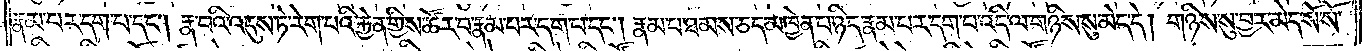རྣམ་པར་དག་པ་དང༌། རྣ་བའི་འདུས་ཏེ་རེག་པའི་རྐྱེན་གྱིས་ཚོར་བ་རྣམ་པར་དག་པ་དང༌། རྣམ་པ་ཐམས་ཅད་མཁྱེན་པ་ཉིད་རྣམ་པར་དག་པ་འདི་ལ་གཉིས་སུ་མེད་དེ། གཉིས་སུ་བྱར་མེད་སོ་སོ་
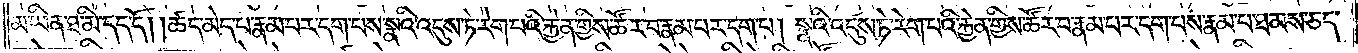མ་ཡིན་ཐ་མི་དད་དོ། །ཚད་མེད་པ་རྣམ་པར་དག་པས་སྣའི་འདུས་ཏེ་རེག་པའི་རྐྱེན་གྱིས་ཚོར་བ་རྣམ་པར་དག་པ། སྣའི་འདུས་ཏེ་རེག་པའི་རྐྱེན་གྱིས་ཚོར་བ་རྣམ་པར་དག་པས་རྣམ་པ་ཐམས་ཅད་
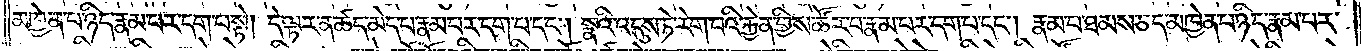མཁྱེན་པ་ཉིད་རྣམ་པར་དག་པ་སྟེ། དེ་ལྟར་ན་ཚད་མེད་པ་རྣམ་པར་དག་པ་དང༌། སྣའི་འདུས་ཏེ་རེག་པའི་རྐྱེན་གྱིས་ཚོར་བ་རྣམ་པར་དག་པ་དང༌། རྣམ་པ་ཐམས་ཅད་མཁྱེན་པ་ཉིད་རྣམ་པར་
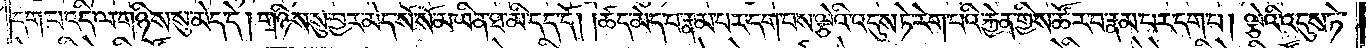དག་པ་འདི་ལ་གཉིས་སུ་མེད་དེ། གཉིས་སུ་བྱར་མེད་སོ་སོ་མ་ཡིན་ཐ་མི་དད་དོ། །ཚད་མེད་པ་རྣམ་པར་དག་པས་ལྕེའི་འདུས་ཏེ་རེག་པའི་རྐྱེན་གྱིས་ཚོར་བ་རྣམ་པར་དག་པ། ལྕེའི་འདུས་ཏེ་
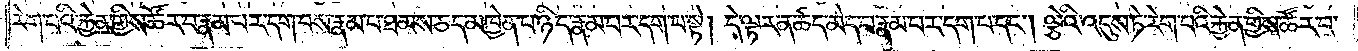རེག་པའི་རྐྱེན་གྱིས་ཚོར་བ་རྣམ་པར་དག་པས་རྣམ་པ་ཐམས་ཅད་མཁྱེན་པ་ཉིད་རྣམ་པར་དག་པ་སྟེ། དེ་ལྟར་ན་ཚད་མེད་པ་རྣམ་པར་དག་པ་དང༌། ལྕེའི་འདུས་ཏེ་རེག་པའི་རྐྱེན་གྱིས་ཚོར་བ་
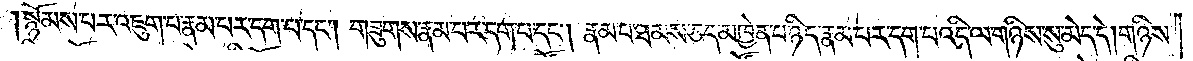སྙོམས་པར་འཇུག་པ་རྣམ་པར་དག་པ་དང༌། གཟུགས་རྣམ་པར་དག་པ་དང༌། རྣམ་པ་ཐམས་ཅད་མཁྱེན་པ་ཉིད་རྣམ་པར་དག་པ་འདི་ལ་གཉིས་སུ་མེད་དེ། གཉིས་
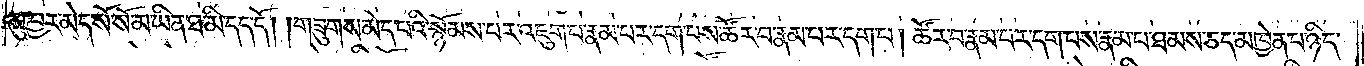སུ་བྱར་མེད་སོ་སོ་མ་ཡིན་ཐ་མི་དད་དོ། །གཟུགས་མེད་པའི་སྙོམས་པར་འཇུག་པ་རྣམ་པར་དག་པས་ཚོར་བ་རྣམ་པར་དག་པ། ཚོར་བ་རྣམ་པར་དག་པས་རྣམ་པ་ཐམས་ཅད་མཁྱེན་པ་ཉིད་
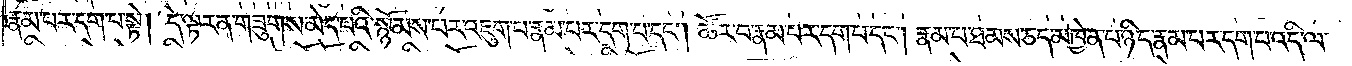རྣམ་པར་དག་པ་སྟེ། དེ་ལྟར་ན་གཟུགས་མེད་པའི་སྙོམས་པར་འཇུག་པ་རྣམ་པར་དག་པ་དང༌། ཚོར་བ་རྣམ་པར་དག་པ་དང༌། རྣམ་པ་ཐམས་ཅད་མཁྱེན་པ་ཉིད་རྣམ་པར་དག་པ་འདི་ལ་
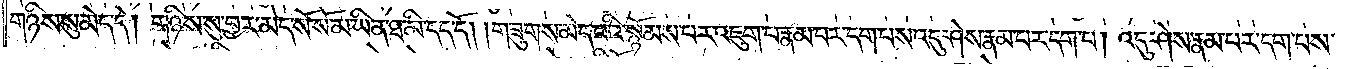གཉིས་སུ་མེད་དེ། གཉིས་སུ་བྱར་མེད་སོ་སོ་མ་ཡིན་ཐ་མི་དད་དོ། །གཟུགས་མེད་པའི་སྙོམས་པར་འཇུག་པ་རྣམ་པར་དག་པས་འདུ་ཤེས་རྣམ་པར་དག་པ། འདུ་ཤེས་རྣམ་པར་དག་པས་
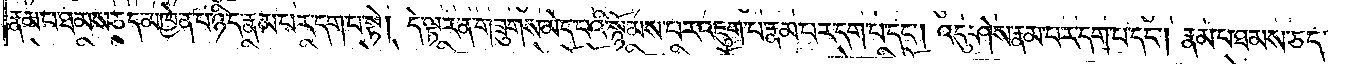རྣམ་པ་ཐམས་ཅད་མཁྱེན་པ་ཉིད་རྣམ་པར་དག་པ་སྟེ། དེ་ལྟར་ན་གཟུགས་མེད་པའི་སྙོམས་པར་འཇུག་པ་རྣམ་པར་དག་པ་དང༌། འདུ་ཤེས་རྣམ་པར་དག་པ་དང༌། རྣམ་པ་ཐམས་ཅད་
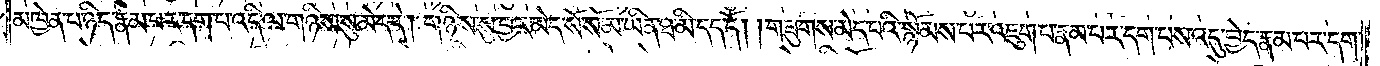མཁྱེན་པ་ཉིད་རྣམ་པར་དག་པ་འདི་ལ་གཉིས་སུ་མེད་དེ། གཉིས་སུ་བྱར་མེད་སོ་སོ་མ་ཡིན་ཐ་མི་དད་དོ། །གཟུགས་མེད་པའི་སྙོམས་པར་འཇུག་པ་རྣམ་པར་དག་པས་འདུ་བྱེད་རྣམ་པར་དག་
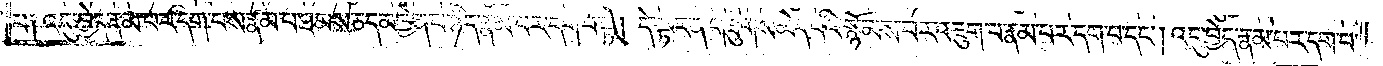པ༑ འདུ་བྱེད་རྣམ་པར་དག་པས་རྣམ་པ་ཐམས་ཅད་མཁྱེན་པ་ཉིད་རྣམ་པར་དག་པ་སྟེ། དེ་ལྟར་ན་གཟུགས་མེད་པའི་སྙོམས་པར་འཇུག་པ་རྣམ་པར་དག་པ་དང༌། འདུ་བྱེད་རྣམ་པར་དག་པ་
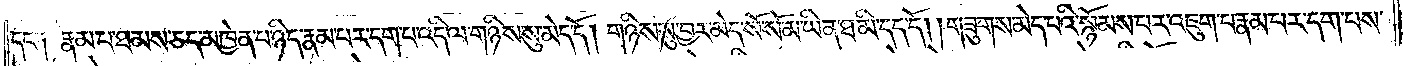དང་༑ རྣམ་པ་ཐམས་ཅད་མཁྱེན་པ་ཉིད་རྣམ་པར་དག་པ་འདི་ལ་གཉིས་སུ་མེད་དོ། གཉིས་སུ་བྱར་མེད་སོ་སོ་མ་ཡིན་ཐ་མི་དད་དོ། །གཟུགས་མེད་པའི་སྙོམས་པར་འཇུག་པ་རྣམ་པར་དག་པས་
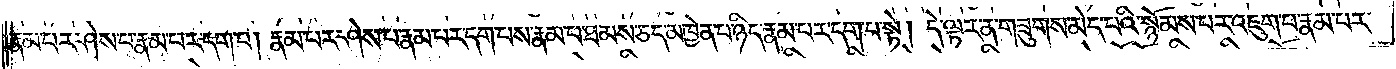རྣམ་པར་ཤེས་པ་རྣམ་པར་དག་པ། རྣམ་པར་ཤེས་པ་རྣམ་པར་དག་པས་རྣམ་པ་ཐམས་ཅད་མཁྱེན་པ་ཉིད་རྣམ་པར་དག་པ་སྟེ། དེ་ལྟར་ན་གཟུགས་མེད་པའི་སྙོམས་པར་འཇུག་པ་རྣམ་པར་
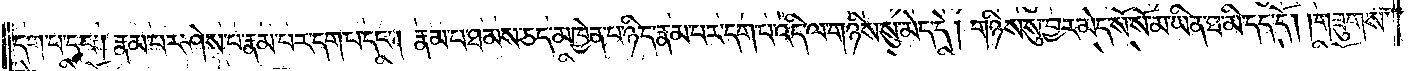དག་པ་དང༌། རྣམ་པར་ཤེས་པ་རྣམ་པར་དག་པ་དང༌། རྣམ་པ་ཐམས་ཅད་མཁྱེན་པ་ཉིད་རྣམ་པར་དག་པ་འདི་ལ་གཉིས་སུ་མེད་དེ། གཉིས་སུ་བྱར་མེད་སོ་སོ་མ་ཡིན་ཐ་མི་དད་དོ། །གཟུགས་
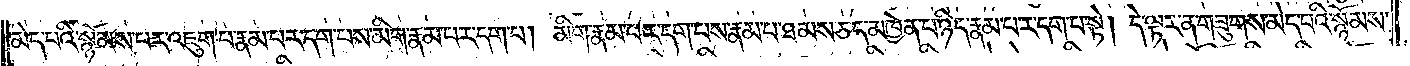མེད་པའི་སྙོམས་པར་འཇུག་པ་རྣམ་པར་དག་པས་མིག་རྣམ་པར་དག་པ། མིག་རྣམ་པར་དག་པས་རྣམ་པ་ཐམས་ཅད་མཁྱེན་པ་ཉིད་རྣམ་པར་དག་པ་སྟེ། དེ་ལྟར་ན་གཟུགས་མེད་པའི་སྙོམས་
